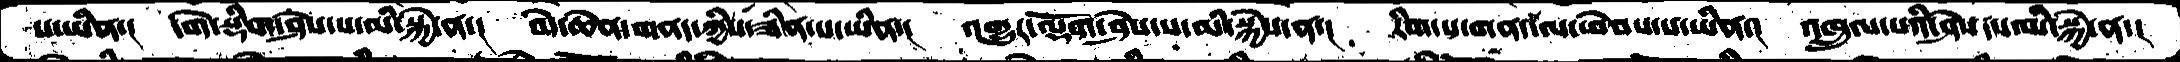ས་ཡིན་།  དགེ་སྡིག་ཤེས་པ་མི་སྐྱེ་ན་།  བདེ་ཆེན་གནད་ཀྱིས་ཟིན་པ་ཡིན་།  འགྱུར་ལྡོག་ཤེས་པ་མི་སྐྱེས་ན་།  རིག་པ་གནད་ལ་ཕེབས་པ་ཡིན་།  འཁྲུལ་པའི་ཤེས་པ་མི་སྐྱེ་ན་།
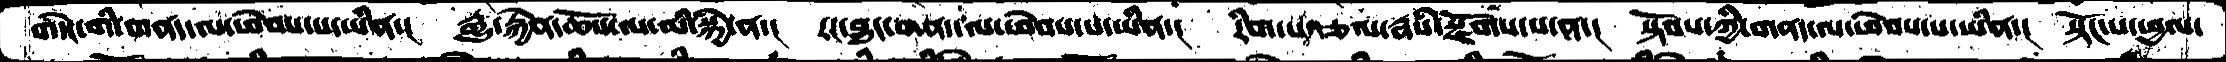གདེང་གི་གནད་ལ་ཕེབས་པ་ཡིན་།  རྒྱུ་རྐྱེན་ཆོས་ལ་མི་སྐྱེ་ན་།  རང་བྱུང་གནས་ལ་ཕེབས་པ་ཡིན་།  རིག་པ་རྩལ་རྣཾས་སྫོགས་པ་ན་།  སྟོབས་ཀྱི་གནད་ལ་ཕེབས་པ་ཡིན་།  སྟོང་པ་ཕྱལ་
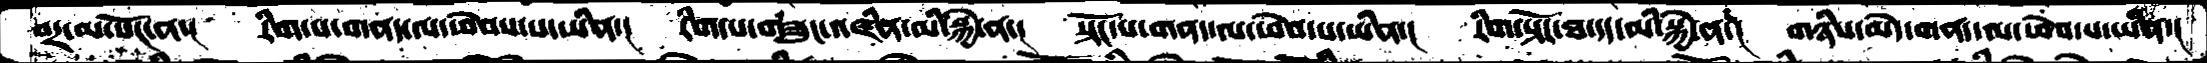བར་མ་སོང་ན་།  རིག་པ་གནད་ལ་ཕེབས་པ་ཡིན་།  རིག་པ་གཟུང་འཛིན་མི་སྐྱེ་ན་།  སྟོང་པ་གནད་ལ་ཕེབས་པ་ཡིན་། རིག་སྟོང་ཐ་དད་མི་སྐྱེ་ན་།  གཉིས་མེད་གནད་ལ་ཕེབས་པ་ཡིན་།
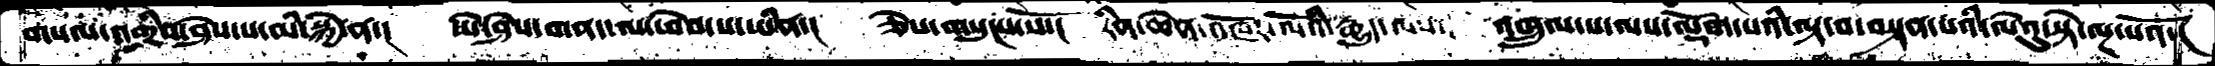གསལ་འགྲིབ་ཤེས་པ་མི་སྐྱེ་ན་།  ཡེ་ཤེས་གནད་ལ་ཕེབས་པ་ཡིན་།  ཅེས་གསུངས་སོ་།  རིན་ཆེན་འཁོར་ལོའི་རྒྱུད་ལས་།  འཁྲུལ་པ་ལས་ལྡོག་པའི་ལྟ་བ་བསྟན་པའི་ལེའུ་སྟེ་ལྔ་པའོ་།
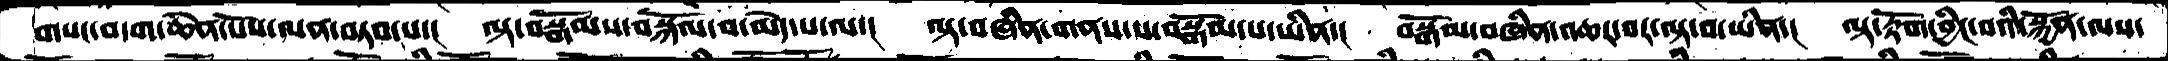གསང་བདག་ཆེན་པོས་ལན་བཏབ་པ་།  ལྟ་བསྒོམས་བསྐོལ་བ་མེད་པ་ལ་།  ལྟ་བཞིན་གནས་པ་བསྒོམ་པ་ཡིན་།  བསྒོམ་བཞིན་འཆར་བར་ལྟ་བ་ཡིན་།  ལྟ་རྟོག་བྱིང་བའི་སྐྱོན་ལས་
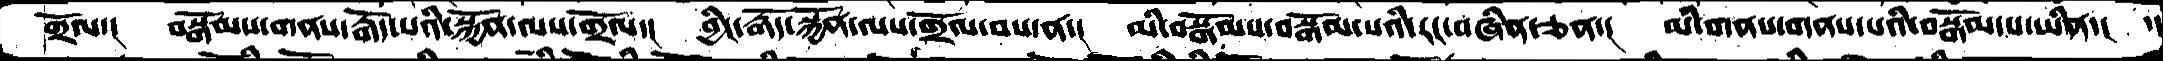གྲོལ་།  བསྒོམས་གནས་རྒོད་པའི་སྐྱོན་ལས་གྲོལ་།  བྱིང་རྒོད་སྐྱོན་ལས་གྲོལ་བས་ན་།  མི་བསྒོམས་བསྒོམ་པའི་རང་བཞིན་ཅན་།  མི་གནས་གནས་པའི་བསྒོམ་པ་ཡིན་།  ་།
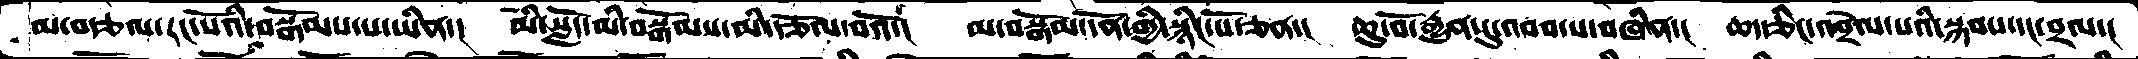མ་བརྩལ་རང་སོའི་བསྒོམས་པ་ཡིན་།  མི་སློད་མི་བསྒོམས་མི་རྩོལ་བའོ་།  མབསྒོམ་དོོན་གྱི་སྙིང་པོ་ཅན་།  ཆུ་བོ་རྒྱུན་དུ་འབབ་པ་བཞིན་།  ཆད་ཅིང་འབྲེལ་པའི་སྐབས་དང་བྲལ་།
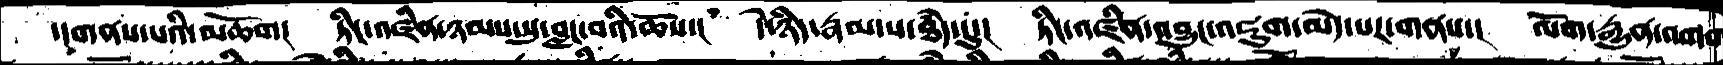་།གནས་པའི་མཆོག།  ཏིང་འཛིན་ཉམས་སུ་བླང་བའི་ཆོས་།  དེ་ཉིད་རྣམ་པ་ཐདཾ་དུ་།  ཏིང་འཛིན་འབྱུང་འཇུག་མེད་པར་གནས་།  ལོག་རྒྱུན་འགག
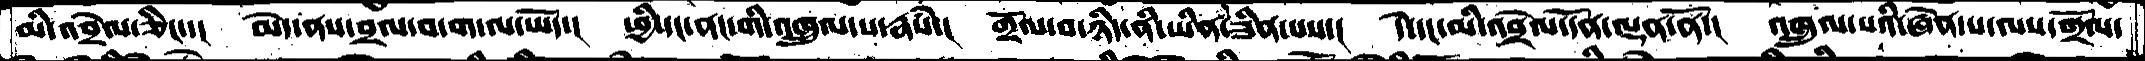མི་འབྲེལ་ཅིང་་།  མེད་ནས་བྲལ་བ་ག་ལ་ཡོད་།  ཕྱི་དང་ནང་གི་འཁྲུལ་པ་རྣཾས་།  གྲོལ་བ་ཉིད་ནི་ཡིན་ཟིན་པས་།  དེ་དང་མི་འབྲེལ་དོན་ལྡན་ནོ་།  འཁྲུལ་པའི་ཞེན་པ་ལས་གྲོལ་
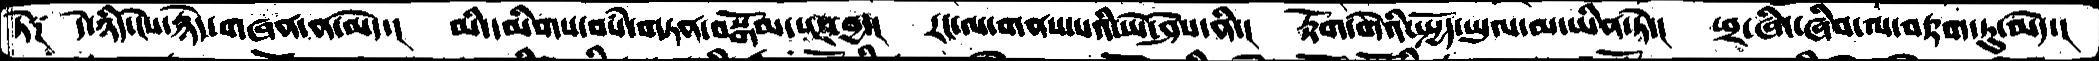ཏེ༑  དེ་ཉིད་ངེས་རྙེད་གཞན་ན་མེད་།  མི་དམིགས་བསཾ་གཏན་བསྒོམ་པར་བྱ་།  རང་ལ་གནས་པའི་ཡེ་ཤེས་ནི་།  རྟོག་གེའི་སྤྱོད་ཡུལ་མ་ཡིན་ཏེ་།  ཕྲ་ཞིང་ཞིབ་ལ་བརྟག་ཏུ་མེད་།
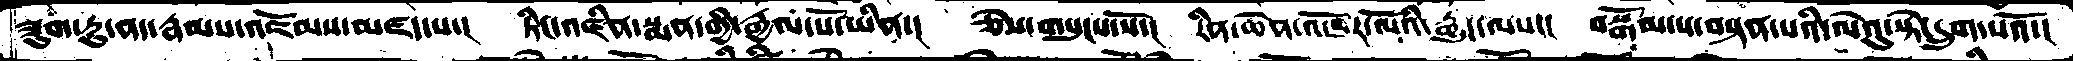ཟུག་ཏུ་ནད་རྣམས་འཇོམས་མཛད་པ་།  ཏིང་འཛིན་སྨན་གྱི་རྒྱལ་པོ་ཡིན་།  ཅེས་གསུངས་སོ་།  རིན་ཆེན་འཁོར་ལོའི་རྒྱུད་ལས།།  བསྒོམ་པ་བསྟན་པའི་ལེའུ་སྟེ་དྲུག་པའོ་།
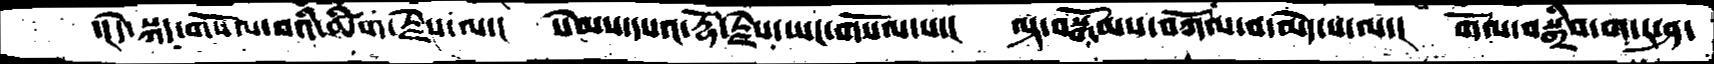་།དེ་སྐད་གསོལ་བའི་ཚིག་རྗེས་ལ་།  སེམས་དཔའ་རྡོ་རྗེས་ཡང་གསོལ་པ་།  ལྟ་བསྒོམས་བཀོལ་བ་མེད་པ་ལ་།  གོལ་བསྒྲིབ་་གདར་ཤ་
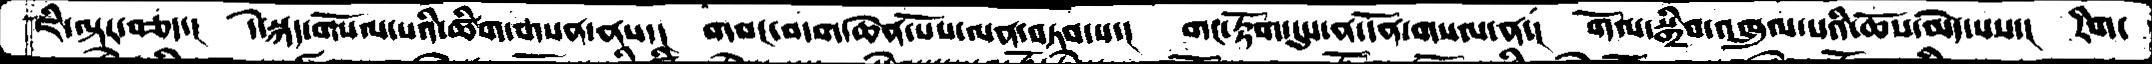ཇི་ལྟར་བཅད་།  དེ་སྐད་གསོལ་པའི་ཚིག་གསན་ནས་།  གསང་བདག་ཆེན་པོས་ལན་བཏབ་པ་།  གང་རྟོག་དུས་ན་དོན་གསལ་ན་།  གོལ་སྒྲིབ་འཁྲུལ་པའི་ཆོས་མེད་པས་།  རིག་
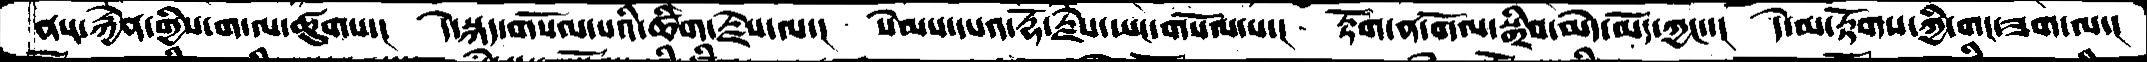ནས་རྐྱེན་གྱིས་ག་ལ་ཚུགས་།  དེ་སྐད་གསོལ་པའི་ཚིག་རྗེས་ལ་།  སེམས་དཔའ་རྡོ་རྗེས་ཡང་གསོལ་པ་།  རྟོག་ན་གོལ་སྒྲིབ་མེད་མོད་ཀྱང་་།  དེ་མ་རྟོགས་ཀྱི་གང་ཟག་ལ་།
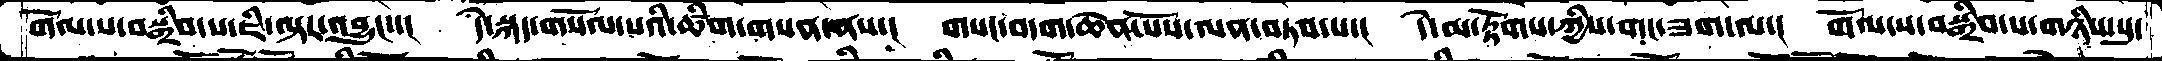གོལ་ས་བསྒྲིབ་པ་ཇི་ལྟར་འབྱུང་་།  དེ་སྐད་གསོལ་པའི་ཚིག་གསན་ནས་།  གསང་བདག་ཆེན་པོས་ལན་བཏབ་པ་།  དེ་མ་རྟོགས་ཀྱིས་གང་ཟག་ལ་།  གོལ་ས་བསྒྲིབ་པ་གཉིས་སུ་
